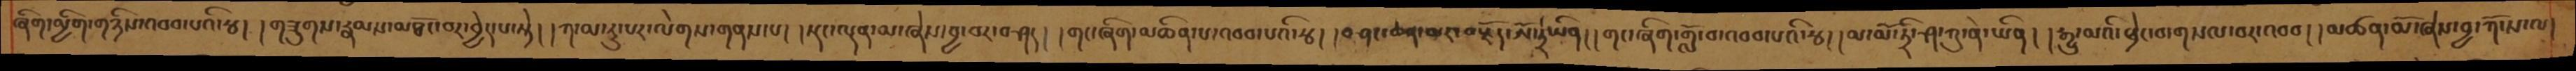ཞིག་མྱིག་གཉིས་འབབ་པའི་རྩ། །གཟུགས་རྣམས་མཐོང་བར་བྱེད་པ་སྟེ། །ཀ་མ་རུ་པར་ལེགས་གནས་པ། །སྡང་ལྡན་མ་ཞེས་བྱ་བར་བཤད། །གང་ཞིག་མཆིན་པ་འབབ་པའི་རྩ། །བཤང་ཆན་མར་བརྗོད་ཨོ་ཏྲེ་ཡིན། །གང་ཞིག་གློ་བ་འབབ་པའི་རྩ། །མ་མོ་ཏྲི་ཤ་ཀུ་ནེ་ཡིན། །རྒྱུ་མའི་ཕྲེང་བ་གསལ་བར་འབབ། །མཚན་མོ་ཞེས་བྱ་ཀོ་ས་ལ།
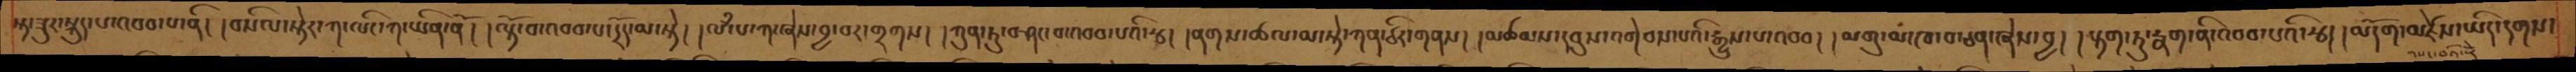སྟ་ཟུར་སྐུད་པ་འབབ་པ་ནི། །བསིལ་སྟེར་ཀ་ལིང་ཀ་ཡིན་ནོ། །ལྟོ་བ་འབབ་པ་དྲོད་མ་སྟེ། །ལཾ་པ་ཀ་ཞེས་བྱ་བར་གྲགས། །ཀུན་ཏུ་བཤང་བ་འབབ་པའི་རྩ། །ནགས་ཚལ་མ་སྟེ་ཀན་ཙིར་གནས། །མཚམས་དབུས་འགེབས་པའི་རྒྱུས་པ་འབབ། །མགུ་མ་ཁ་བ་ཅན་ཞེས་བྱ། །རྟག་ཏུ་རྣག་ནི་འབབ་པའི་རྩ། །མདོག་མཛེས་ཡིད་དགས་
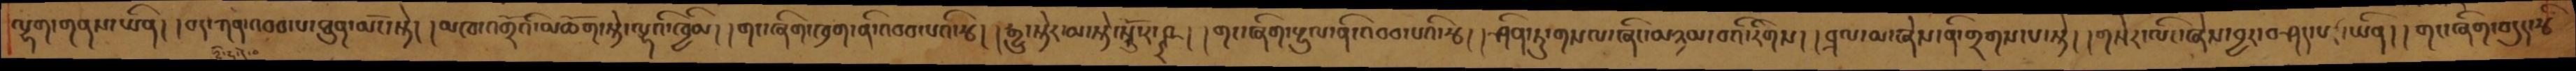ལྷག་གནས་ཡིན། །བད་ཀན་འབབ་པ་ཐུན་མོང་སྟེ། །མཁ་འགྲོའི་མཆོག་སྟེ་ལྷའི་ཁྱིམ། །གང་ཞིག་ཁྲག་ནི་འབབ་པའི་རྩ། །རྒྱུ་སྟེར་མ་སྟེ་སྤུ་ར་ཤྵ། །གང་ཞིག་རྡུལ་ནི་འབབ་པའི་རྩ། །ཤིན་ཏུ་གསལ་ཞིང་མཉམ་བའི་རིགས། །བྲལ་མ་ཞེས་ནི་གྲགས་པ་སྟེ། །གསེར་ལིང་ཞེས་བྱར་བཤད་པར་ཡིན། །གང་ཞིག་བདུད་རྩི
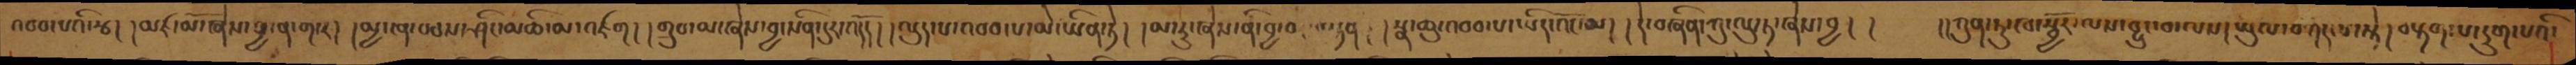འབབ་པའི་རྩ། །མཛ་མོ་ཞེས་བྱ་ན་ག་ར། །མྱ་ངན་བཅས་ཤིང་མཆི་མ་འཛག། །གྲུབ་མ་ཞེས་བྱ་སིན་དུར་འདོད། །ལུད་པ་འབབ་པ་མེ་ཡིན་ཏེ། །མ་རུ་ཞེས་ནི་བྱ་བར་བསྟན། །སྣ་ཆུ་འབབ་པ་ཡིད་འོང་མ། །དེ་བཞིན་ཀུ་ལུ་ཏ་ཞེས་བྱ། །  །།ཀུན་ཏུ་ཁ་སྦྱོར་ལས་བྱུང་བ་ལས།ཡུལ་བཤད་པ་སྟེ། བརྟག་པ་དྲུག་པའི་
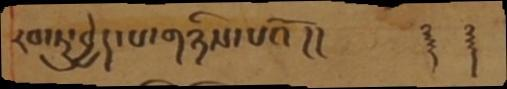རབ་ཏུ་བྱེད་པ་གཉིས་པའོ།།   ༈ ༈
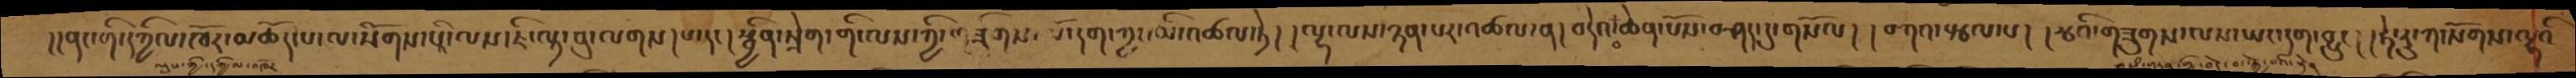།།ནང་གི་དཀྱིལ་འཁོར་མཆོད་པ་ལ་སོགས་པའི་ཇི་ལྟ་བུ་ལགས། །སྦྱིན་སྲེག་གི་ལས་ཀྱི་གཟིགས་པོ་དག་ཀྱང་མི་འཚལ་ཏེ། །ལྷ་ལས་ཉན་པར་འཚལ་ན། །བདེའ་བ་ཆེན་པོས་བཤད་དུ་གསོལ། །བཀའ་སྩལ་པ། །རྩའི་གཟུགས་ལས་ཡང་དག་བྱུང། །ཧེ་རུ་ཀ་སོགས་ལྷའི
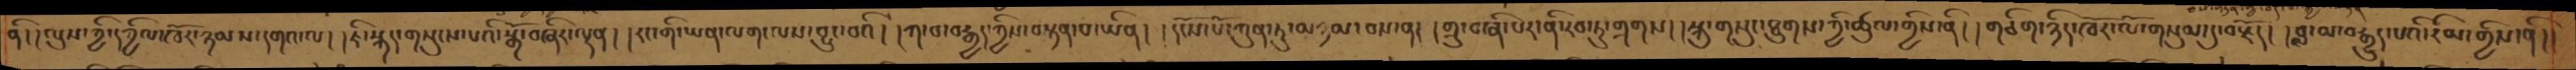ནི།།ལུས་ཀྱི་དཀྱིལ་ཁོར་ཉམས་དགའ་ལ། །ཇི་སྐད་གསུངས་པའི་སྒོ་བཞིར་ལྡན། །རང་གི་ཡན་ལག་ལས་བྱུང་བའི། །ཀ་བ་བརྒྱད་ཀྱིས་བསྟན་པ་ཡིན། །དངོས་པོ་ཀུན་ཏུ་མཉམ་བས་ན། །གྲུ་བཞི་པར་ནི་རབ་ཏུ་གྲགས། །སྐུ་གསུང་ཐུགས་ཀྱི་ཚུལ་གྱིས་ནི། །གཅིག་ཉིད་ཁོར་ལོ་གསུམ་དུ་བརྗོད། །བླ་མ་བརྒྱུད་པའི་རིམ་གྱིས་ནི། །
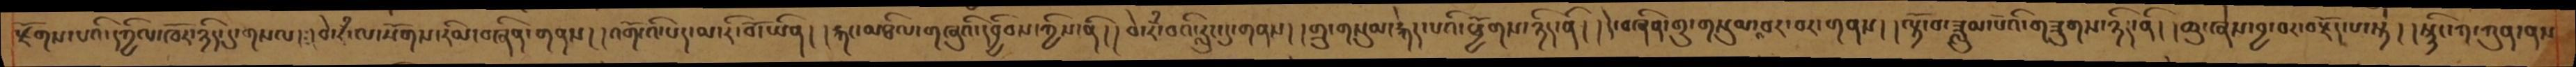རྫོགས་པའི་དཀྱིལ་འཁོར་ཉིད་དུ་གསལ། ༴།བེ་རྃ་ལ་སོགས་རིམ་བཞིན་གནས། །འགོ་འི་པད་མ་རི་བོ་ཡིན། །རྐང་མཐིལ་གཞུའི་དབྱིབས་ཀྱིས་ནི། །བེ་རཾ་བའི་རླུང་དུ་གནས། །གྲུ་གསུམ་རྐེད་པའི་ཕྱོགས་ཉིད་ནི། །དེ་བཞིན་གྲུ་གསུམ་འབར་བར་གནས། །ལྟོ་བ་ཟླུམ་པོའི་གཟུགས་ཉིད་ནི། །ཆུ་ཞེས་བྱ་བར་བརྗོད་པ་སྟེ། །སྙིང་ཀ་ཀུན་ནས
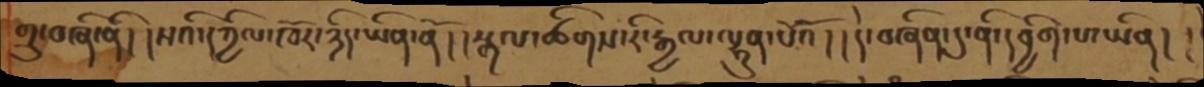གྲུ་བཞི་ནི། །སའི་དཀྱིལ་ཁོར་ཉིད་ཡིན་ནོ ། །སྒལ་ཚིགས་རི་རྒྱལ་ལྷུན་པོའོ ། ། དེ་བཞིན་དུ་ནི་དབྱིག་པ་ཡིན། །
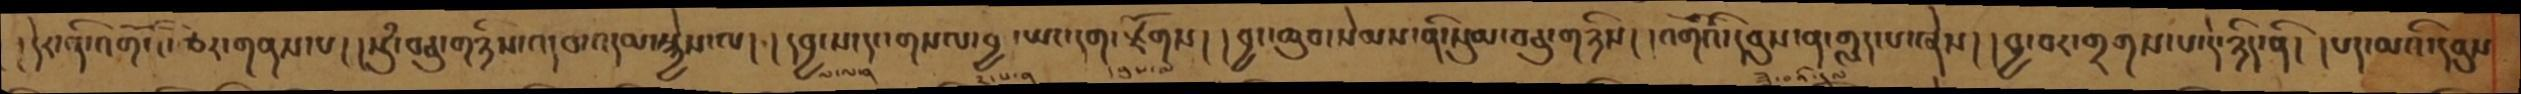།དེར་ནི་འགོ་ངེ་ཅིར་གནས་པ། །སུཾ་བཅུ་གཉིས་འདབ་འདམ་སྐྱེས་ལ། །དབྱངས་དང་གསལ་བྱ་ཡང་དག་རྫོགས། །བྱང་ཆུབ་སེམས་ནི་སུམ་བཅུ་གཉིས། །འགོའི་དབུས་ན་གླད་པ་ཞེས། །བྱ་བར་གྲགས་པ་དེ་ཉིད་ནི། །པད་མའི་དབུས
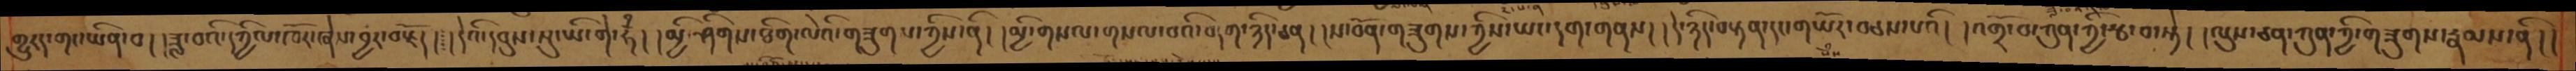གྱུརད་གང་ཡིན་པ། །ཟླ་བའི་དཀྱིལ་འཁོར་ཞེས་བྱར་བརྗོད། །དེའི་དབུས་སུ་ཡི་གེ་ཧྃ། །མྱི་ཤིགས་ཐིག་ལེའི་གཟུགས་ཀྱིས་ནི། །མྱི་གསལ་གསལ་བའི་བདག་ཉིད་ཅན། །ས་བོན་གཟུགས་ཀྱིས་ཡང་དག་གནས། །དེ་ཉིད་བསྟན་དང་གཡོར་བཅས་པའི། །འགྲོ་བ་ཀུན་ཀྱི་རྩ་བ་སྟེ། །ལུས་ཅན་ཀུན་ཀྱི་གཟུགས་རྣམས་ནི།།
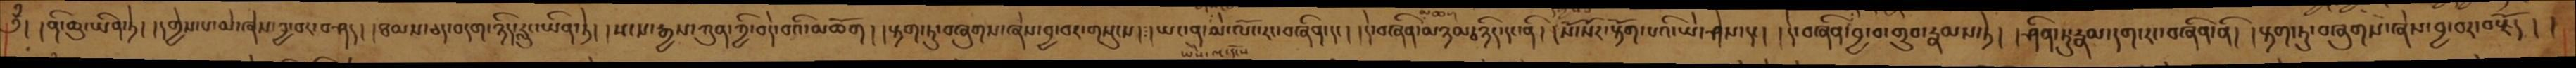༄ྃ། །ནི་ཆུ་ཡིན་ཏེ། །དགྱེས་པ་མེ་ཞེས་བྱ་བར་བཤད། །ཐམས་ཅད་བདག་ཉིད་རླུང་ཡིན་ཏེ། །སངས་རྒྱས་ཀུན་ཀྱི་བདེ་བའི་མཆོག། །རྟག་ཏུ་བཞུགས་ཞེས་བྱ་བར་གསུངས། །ཡང་ན་མེ་ལོང་རང་བཞིན་དང། །དེ་བཞིན་མཉམ་པ་ཉིད་དང་ནི། །སོ་སོར་རྟོག་པའི་ཡེ་ཤེས་དང། །དེ་བཞིན་བྱ་བ་གྲུབ་རྣམས་སྟེ། །ཤིན་ཏུ་རྣམ་དག་རང་བཞིན་ནི། །རྟག་ཏུ་བཞུགས་ཞེས་བྱ་བར་བརྗོད། །
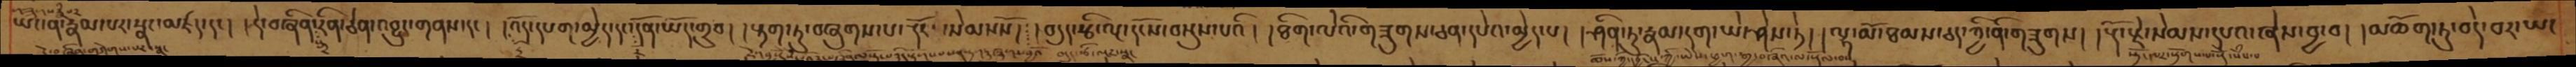ཡིད་ནི་རྣམ་པར་སྣང་མཛད་དང། །དེ་བཞིན་རིན་ཅེན་འབྱུང་གནས་དང། །འོད་དཔག་མྱེད་དང་དོན་ཡོད་གྲུབ། །རྟག་ཏུ་བཞུགས་པ་རྡོར་སེམསསོ། །བདུད་རྩི་ལྔ་དངོས་བསྡུས་པའི། །ཐིག་ལེའི་གཟུགས་ཅན་དཔེའ་མྱེད་པ། །ཤིན་ཏུ་རྣམ་དག་ཡེ་ཤེས་ཏེ། །ལྷ་མོ་ཐམས་ཅད་ཀྱི་ནི་གཟུགས། །རྡོ་རྗེ་སེམས་དཔའ་ཞེས་བྱ་བ། །མཆོག་ཏུ་བདེ་བར་ཡང་
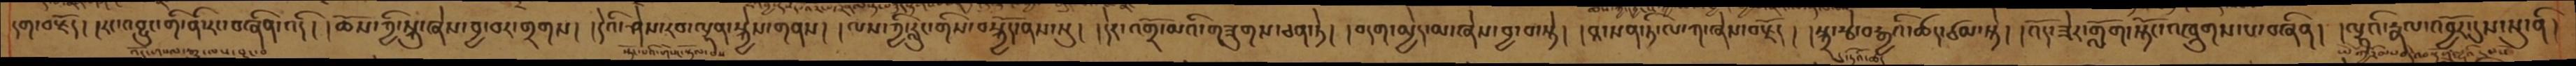དག་བརྗོད། །རང་འབྱུང་གི་ནི་རང་བཞིན་འདི། །ཆོས་ཀྱི་སྐུ་ཞེས་བྱ་བར་གྲགས། །དེའི་ཤེས་རབ་ལྷན་སྐྱེས་གནས། །ལས་ཀྱི་རླུང་གིས་བསྐྱོད་ནས་སུ། །དེར་འགྲོ་མའི་གཟུགས་ཅན་ཏེ། །བདག་མྱེད་མ་ཞེས་བྱ་བ་སྟེ། །བཱ་སན་ཏི་ལ་ཀ་ཞེས་བརྗོད། །སྐྲ་རྩེ་བརྒྱའི་ཚད་ཙམ་སྟེ། །འོད་ཟེར་གློག་སྟོང་འཁྲུགས་པ་བཞིན། །ལྷའི་རྣལ་འབྱོར་དུས་སུ་ནི།
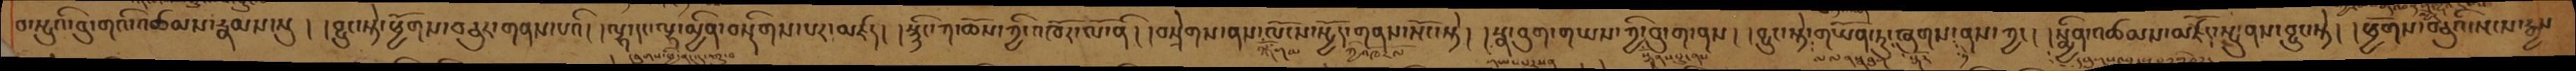བ་སྤུའི་བུ་གའི་འཚམས་རྣམས་སུ། །བྱུང་སྟེ་ཕྱོགས་བཅུར་གནས་པའི། །ལྷ་དང་ལྷ་མྱིན་བསྡིགས་པར་མཛད། །སྙིང་ཀ་ཆོས་ཀྱི་འཁོར་ལོ་ནི། །བསྲེགས་ནས་ལོངས་སྤྱོད་གནས་སོང་སྟེ། །སྣ་བུག་གཡས་ཀྱི་བུ་ག་ནས། །བྱུང་སྟེ་གཡོན་ཏུ་ཞུགས་ནས་ཀྱང། །སྨྱིན་འཚམས་མཛོད་སྤུ་ནས་བྱུང་སྟེ། །ཕྱོགས་བཅུའི་སངས་རྒྱས
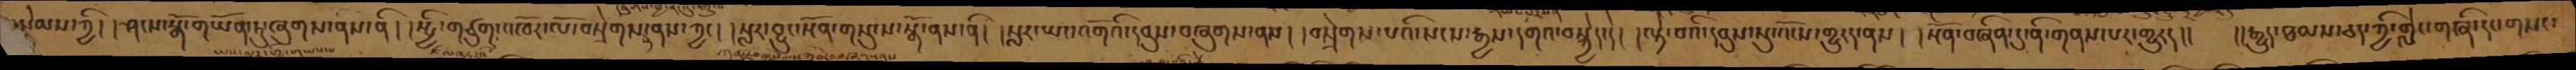སེམས་ཀྱི། །ཤངས་སྒོ་གཡོན་ཏུ་ཞུགས་ནས་ནི། །སྤྱི་གཙུག་འཁོར་ལོ་བསྲེགས་ནས་ཀྱང། །སླར་བྱུང་སྔོན་གསུངས་སྒོ་ནས་ནི། །སླར་ཡང་འགོའི་དབུས་བཞུགས་ནས། །བསྲེགས་པའི་སངས་རྒྱས་དགའ་བསྐྱེད་དེ། །ལྟེ་བའི་དབུས་སུ་འོངས་གྱུརད་ནས། །སྔོན་བཞིན་དུ་ནི་གནས་པར་གྱུརད།།   །།རྒྱུད་ཐམས་ཅད་ཀྱི་གླེང་གཞི་དང་གསང་
